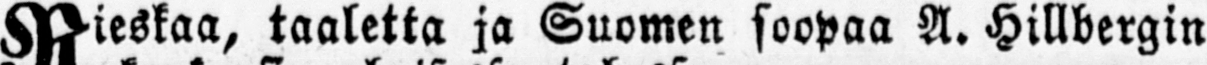Rieskaa, taaletta ja Suomen soopaa A.Hillbergin
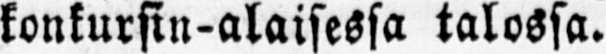konkursin-alaisessa talossa.
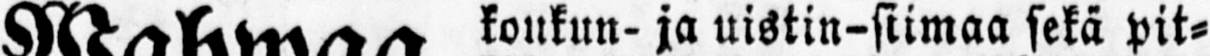Wahwaa-koukun- ja uistin-siimaa sekä pit-
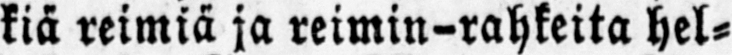kiä reimiä ja reimin-rahkeita hel-
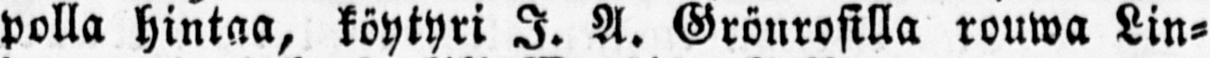polla hintaa, köytyri I. A. Grönrosilla rouwa Lin-
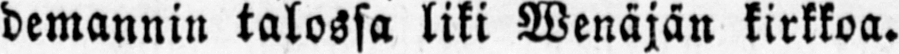demannin talossa liki Wenäjän kirkkoa.
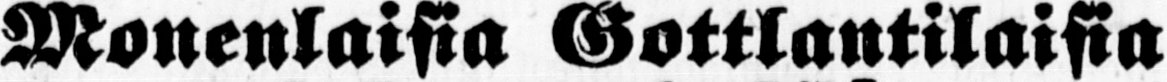Monenlaisia Gottlantilaisia
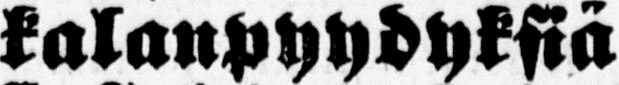kalanpyydyksiä
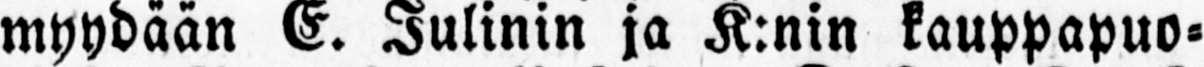myydään E.Julinin ja K:nin kauppapuo-
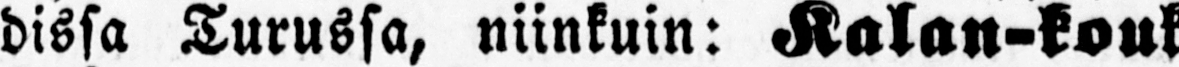dissa Turussa, niinkuin: Kalan-kouk-
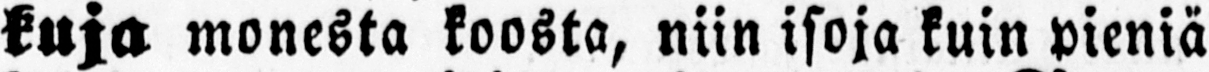kuja monesta koosta, niin isoja kuin pieniä
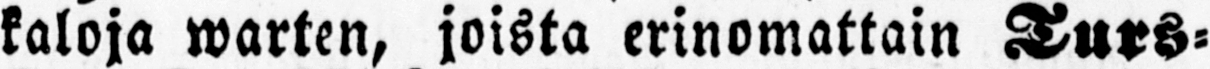kaloja warten, joista erinomattain Turs-
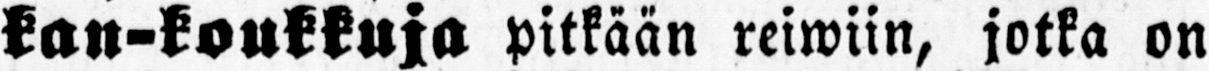kan-koukkuja pitkään reiwiin, jotka on
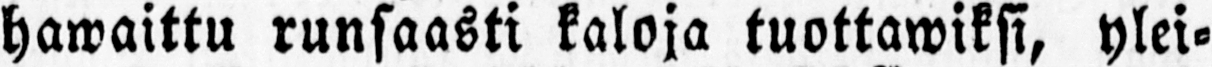hawaittu runsaasti kaloja tuottawiksi, ylei-
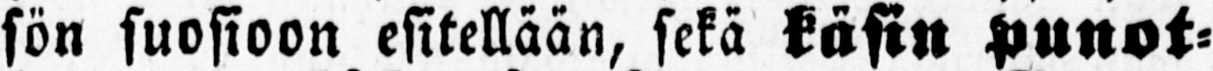sön suosioon esitellään, sekä käsin punot-
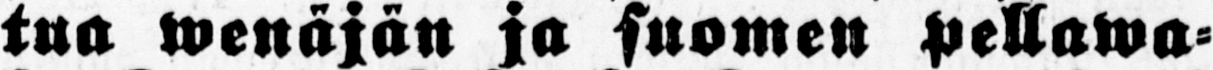tua wenäjän ja suomen pellawa-
